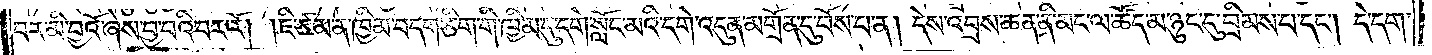བར་མི་བྱའོ་ཞེས་བྱ་བའི་བར་རོ། །ཇི་ཙམ་ན་ཁྱིམ་བདག་ཅིག་གི་ཁྱིམ་དུ་དགེ་སློང་མའི་དགེ་འདུན་མགྲོན་དུ་བོས་པ་ན། དེས་འབྲས་ཆན་ནི་མང་ལ་ཚོད་མ་ཉུང་དུ་བྲིམས་པ་དང༌། དེ་དག་
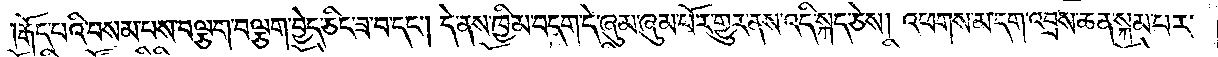།རྒོད་པའི་བསམ་པས་བལྕག་བལྕག་བྱེད་ཅིང་ཟ་བ་དང༌། དེ་ནས་ཁྱིམ་བདག་དེ་ཞུམ་ཞུམ་པོར་གྱུར་ནས་འདི་སྐད་ཅེས། འཕགས་མ་དག་འབྲས་ཆན་སྐམ་པར་
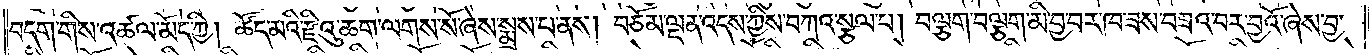བདག་གིས་འཚལ་མོད་ཀྱི། ཚོད་མའི་རྫིའུ་ཆག་ལགས་སོ་ཞེས་སྨྲས་པ་ནས། བཅོམ་ལྡན་འདས་ཀྱིས་བཀའ་སྩལ་པ། བལྕག་བལྕག་མི་བྱ་བར་ཁ་ཟས་བཟའ་བར་བྱའོ་ཞེས་བྱ་
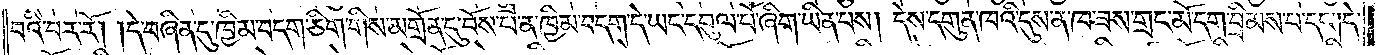བའི་བར་རོ། །དེ་བཞིན་དུ་ཁྱིམ་བདག་ཅིག་གིས་མགྲོན་དུ་བོས་པ་ན་ཁྱིམ་བདག་དེ་ཡང་དབུལ་པོ་ཞིག་ཡིན་པས། དེས་དགུན་ཁའི་དུས་ན་ཁ་ཟས་གྲང་མོ་དག་བྲིམས་པ་དང༌། དེ་
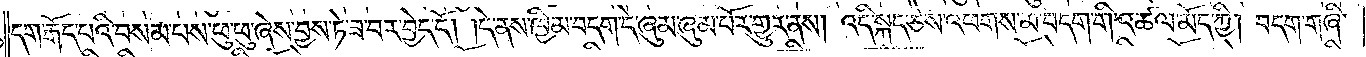དག་རྒོད་པའི་བསམ་པས་ཕུ་ཕུ་ཞེས་བྱས་ཏེ་ཟ་བར་བྱེད་དོ། །དེ་ནས་ཁྱིམ་བདག་དེ་ཞུམ་ཞུམ་པོར་གྱུར་ནས། འདི་སྐད་ཅེས་འཕགས་མ་བདག་གི་འཚལ་མོད་ཀྱི། བདག་གཞི་
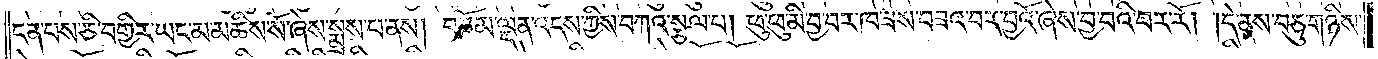ངན་པས་ཅི་བགྱིར་ཡང་མ་མཆིས་སོ་ཞེས་སྨྲས་པ་ནས། བཅོམ་ལྡན་འདས་ཀྱིས་བཀའ་སྩལ་པ། ཕུ་ཕུ་མི་བྱ་བར་ཁ་ཟས་བཟའ་བར་བྱའོ་ཞེས་བྱ་བའི་བར་རོ། །དེ་ནས་བཅུ་གཉིས་
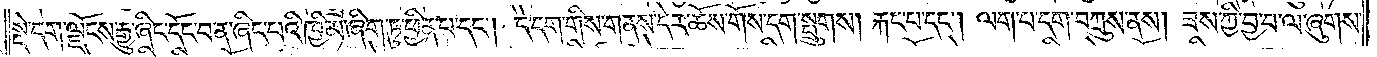སྡེ་དག་ལྗོངས་རྒྱུ་ཞིང་དོང་བ་ན་ཞིང་པའི་ཁྱིམ་ཞིག་ཏུ་ཕྱིན་པ་དང༌། དེ་དག་གིས་གནས་དེར་ཆོས་གོས་དག་སྤྲུགས། རྐང་པ་དང༌། ལག་པ་དག་བཀྲུས་ནས། ཟས་ཀྱི་བྱ་བ་ལ་ཞུགས་
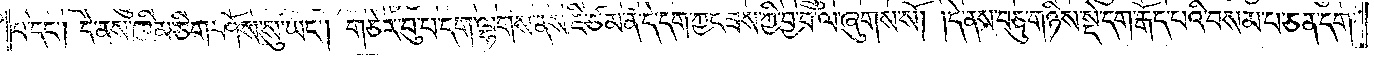པ་དང༌། དེ་ནས་ཁྱིམ་ཅིག་ཤོས་སུ་ཡང༌། གཅེར་བུ་པ་དག་ལྷགས་ནས་ཇི་ཙམ་ན་དེ་དག་ཀྱང་ཟས་ཀྱི་བྱ་བ་ལ་ཞུགས་སོ། །དེ་ནས་བཅུ་གཉིས་སྡེ་དག་རྒོད་པའི་བསམ་པ་ཅན་དག་
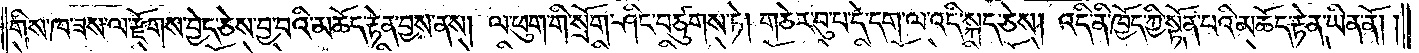གིས་ཁ་ཟས་ལ་རྫོགས་བྱེད་ཅེས་བྱ་བའི་མཆོད་རྟེན་བྱས་ནས། ལ་ཕུག་གི་སྲོག་ཤིང་བཙུགས་ཏེ། གཅེར་བུ་པ་དེ་དག་ལ་འདི་སྐད་ཅེས། འདི་ནི་ཁྱོད་ཀྱི་སྟོན་པའི་མཆོད་རྟེན་ཡིན་ནོ། །
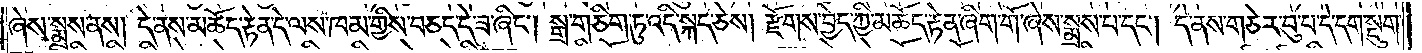ཞེས་སྨྲས་ནས། དེ་ནས་མཆོད་རྟེན་དེ་ལས་ཁམ་གྱིས་བཅད་དེ་ཟ་ཞིང༌། སྒྲ་གཅིག་ཏུ་འདི་སྐད་ཅེས། རྫོགས་བྱེད་ཀྱི་མཆོད་རྟེན་ཞིག་གོ་ཞེས་སྨྲས་པ་དང༌། དེ་ནས་གཅེར་བུ་པ་དེ་དག་སྡུག་
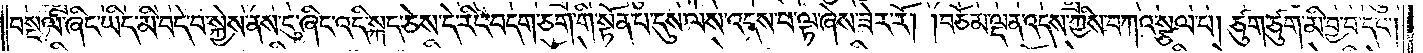བསྔལ་ཞིང་ཡིད་མི་བདེ་བ་སྐྱེས་ནས་ངུ་ཞིང་འདི་སྐད་ཅེས་དེ་རིང་བདག་ཅག་གི་སྟོན་པ་དུས་ལས་འདས་པ་ལྟ་ཞེས་ཟེར་རོ། །བཅོམ་ལྡན་འདས་ཀྱིས་བཀའ་སྩལ་པ། ཙུག་ཙུག་མི་བྱ་བ་དང༌།
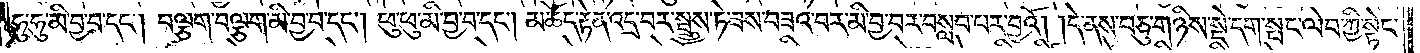ཧུ་ཧུ་མི་བྱ་བ་དང༌། བལྕག་བལྕག་མི་བྱ་བ་དང༌། ཕུ་ཕུ་མི་བྱ་བ་དང༌། མཆོད་རྟེན་འདྲ་བར་སྦྲུས་ཏེ་ཟས་བཟའ་བར་མི་བྱ་བར་བསླབ་པར་བྱའོ། །དེ་ནས་བཅུ་གཉིས་སྡེ་དག་སྤང་ལེབ་ཀྱི་སྟེང་
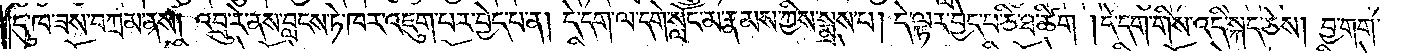དུ་ཁ་ཟས་བཀྲམ་ནས། འབྲུ་རེ་ནས་བླངས་ཏེ་ཁར་འཇུག་པར་བྱེད་པ་ན། དེ་དག་ལ་དགེ་སློང་མ་རྣམས་ཀྱིས་སྨྲས་པ། དེ་ལྟར་བྱེད་པ་ཅི་ཐ་ཚིག །དེ་དག་གིས་འདི་སྐད་ཅེས། བྱ་གག་
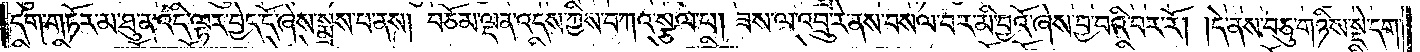དག་གཏོར་མ་ཐུ་ན་འདི་ལྟར་བྱེད་དོ་ཞེས་སྨྲས་པ་ནས། བཅོམ་ལྡན་འདས་ཀྱིས་བཀའ་སྩལ་པ། ཟས་ལ་འབྲུ་རེ་ནས་བསལ་བར་མི་བྱའོ་ཞེས་བྱ་བའི་བར་རོ། །དེ་ནས་བཅུ་གཉིས་སྡེ་དག་
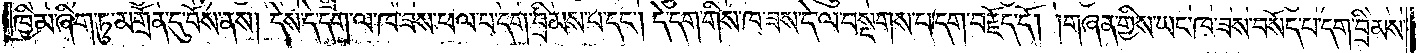ཁྱིམ་ཞིག་ཏུ་མགྲོན་དུ་བོས་ནས། དེས་དེ་དག་ལ་ཁ་ཟས་ཕལ་པ་དག་བྲིམས་པ་དང༌། དེ་དག་གིས་ཁ་ཟས་དེ་ལ་བསྔགས་པ་དག་བརྗོད་དོ། །གཞན་གྱིས་ཡང་ཁ་ཟས་བསོད་པ་དག་བྲིམས་
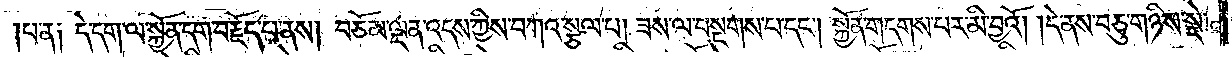པ་ན༑ དེ་དག་ལ་སྐྱོན་དག་བརྗོད་པ་ནས། བཅོམ་ལྡན་འདས་ཀྱིས་བཀའ་སྩལ་པ། ཟས་ལ་བསྔགས་པ་དང༌། སྐྱོན་གདགས་པར་མི་བྱའོ། །དེ་ནས་བཅུ་གཉིས་སྡེ་
